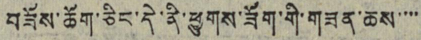བཟོས་ཆོག་ཅིང་དེ་ནི་ཕྱུགས་ཟོག་གི་གཟན་ཆས་་་་
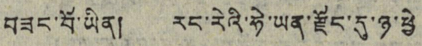བཟང་བོ་ཡིན། རང་རའི་ཧེ་ཡན་རྫོང་དུ་ཉ་ཕྱེ
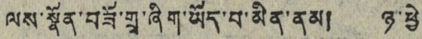ལས་སྣོན་བཟོ་གྲྭ་ཞིག་ཡོད་པ་མིན་ནམ། ཉ་ཕྱེ
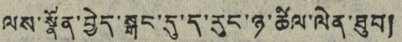ལས་སྣོན་བྱེད་སྒང་དུ་ད་རུང་ཉ་ཚིལ་ལེན་ཐུབ།
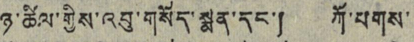ཉ་ཚིལ་གྱིས་འབུ་གསོད་སྨན་དང་། ཀོ་པགས་
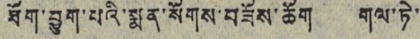ཐོག་བྱུག་པའི་སྨན་སོགས་བཟོས་ཆོག གལ་ཏེ་
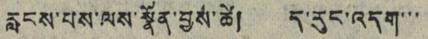རླངས་པས་ལས་སྣོན་བྱས་ཚེ། ད་རུང་འདག་་་
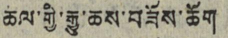ཆལ་གྱི་རྒྱུ་ཆས་བཟོས་ཆོག
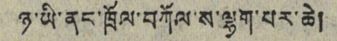ཉ་ཡི་ནང་ཁྲོལ་བཀོལ་ས་ལྷག་པར་ཆེ།
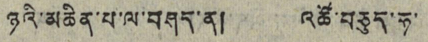ཉའི་མཆིན་པ་ལ་བཤད་ན། འཚོ་བཅུད་ཧ་
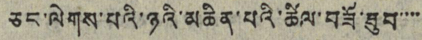ཅང་ལེགས་པའི་ཉའི་མཆིན་པའི་ཚིལ་བཟོ་ཐུབ་་་་
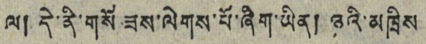ལ། དེ་ནི་གསོ ཟས་ལེགས་པོ་ཞིག་ཡིན། ཉའི་མཁྲིས
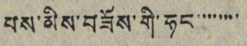པས་མིས་བཟོས་གི་ཧང་་་་་་་་
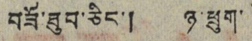བཟོ་ཐུབ་ཅིང་། ཉ་ཕྲུག་
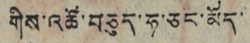གིས་འཚོ་བཅུད་ཧ་ཅང་མོད་
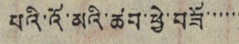པའི་འོ་མའི་ཚབ་ཕྱེ་བཟོ་་་་་་
